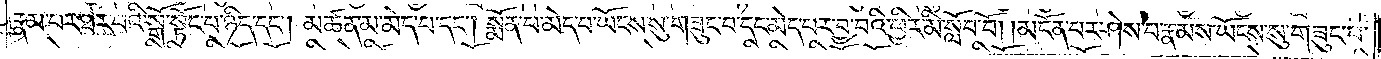རྣམ་པར་ཐར་པའི་སྒོ་སྟོང་པ་ཉིད་དང༌། མཚན་མ་མེད་པ་དང༌། སྨོན་པ་མེད་པ་ཡོངས་སུ་གཟུང་བ་དང་མེད་པར་བྱ་བའི་ཕྱིར་མི་སློབ་བོ། །མངོན་པར་ཤེས་པ་རྣམས་ཡོངས་སུ་གཟུང་བ་
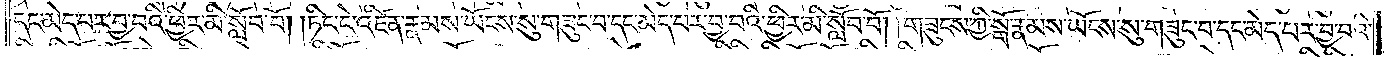དང་མེད་པར་བྱ་བའི་ཕྱིར་མི་སློབ་བོ། །ཏིང་ངེ་འཛིན་རྣམས་ཡོངས་སུ་གཟུང་བ་དང་མེད་པར་བྱ་བའི་ཕྱིར་མི་སློབ་བོ། ། གཟུངས་ཀྱི་སྒོ་རྣམས་ཡོངས་སུ་གཟུང་བ་དང་མེད་པར་བྱ་བའི་
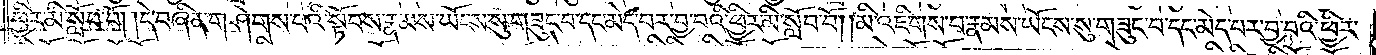ཕྱིར་མི་སློབ་བོ། །དེ་བཞིན་གཤེགས་པའི་སྟོབས་རྣམས་ཡོངས་སུ་གཟུང་བ་དང་མེད་པར་བྱ་བའི་ཕྱིར་མི་སློབ་བོ། །མི་འཇིགས་པ་རྣམས་ཡོངས་སུ་གཟུང་བ་དང་མེད་པར་བྱ་བའི་ཕྱིར་
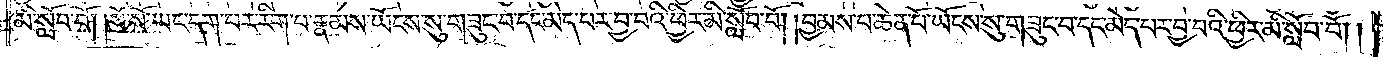མི་སློབ་བོ། །སོ་སོ་ཡང་དག་པར་རིག་པ་རྣམས་ཡོངས་སུ་གཟུང་བ་དང་མེད་པར་བྱ་བའི་ཕྱིར་མི་སློབ་བོ། །བྱམས་པ་ཆེན་པོ་ཡོངས་སུ་གཟུང་བ་དང་མེད་པར་བྱ་བའི་ཕྱིར་མི་སློབ་བོ། །
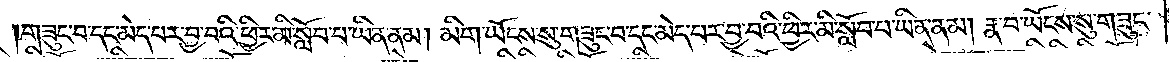གཟུང་བ་དང་མེད་པར་བྱ་བའི་ཕྱིར་མི་སློབ་པ་ཡིན་ནམ། མིག་ཡོངས་སུ་གཟུང་བ་དང་མེད་པར་བྱ་བའི་ཕྱིར་མི་སློབ་པ་ཡིན་ནམ། རྣ་བ་ཡོངས་སུ་གཟུང་
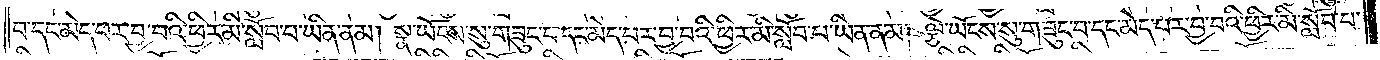བ་དང་མེད་པར་བྱ་བའི་ཕྱིར་མི་སློབ་པ་ཡིན་ནམ། སྣ་ཡོངས་སུ་གཟུང་བ་དང་མེད་པར་བྱ་བའི་ཕྱིར་མི་སློབ་པ་ཡིན་ནམ། ལྕེ་ཡོངས་སུ་གཟུང་བ་དང་མེད་པར་བྱ་བའི་ཕྱིར་མི་སློབ་པ་
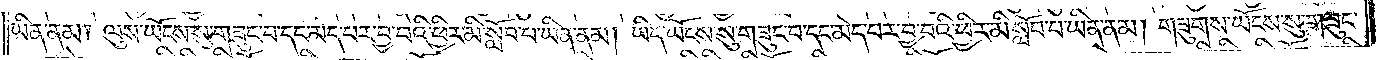ཡིན་ནམ། ལུས་ཡོངས་སུ་གཟུང་བ་དང་མེད་པར་བྱ་བའི་ཕྱིར་མི་སློབ་པ་ཡིན་ནམ། ཡིད་ཡོངས་སུ་གཟུང་བ་དང་མེད་པར་བྱ་བའི་ཕྱིར་མི་སློབ་པ་ཡིན་ནམ། གཟུགས་ཡོངས་སུ་གཟུང་
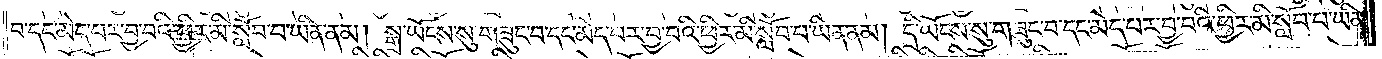བ་དང་མེད་པར་བྱ་བའི་ཕྱིར་མི་སློབ་པ་ཡིན་ནམ། སྒྲ་ཡོངས་སུ་གཟུང་བ་དང་མེད་པར་བྱ་བའི་ཕྱིར་མི་སློབ་པ་ཡིན་ནམ། དྲི་ཡོངས་སུ་གཟུང་བ་དང་མེད་པར་བྱ་བའི་ཕྱིར་མི་སློབ་པ་ཡིན་
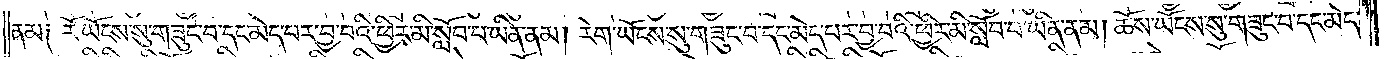ནམ༑ རོ་ཡོངས་སུ་གཟུང་བ་དང་མེད་པར་བྱ་བའི་ཕྱིར་མི་སློབ་པ་ཡིན་ནམ། རེག་ཡོངས་སུ་གཟུང་བ་དང་མེད་པར་བྱ་བའི་ཕྱིར་མི་སློབ་པ་ཡིན་ནམ། ཆོས་ཡོངས་སུ་གཟུང་བ་དང་མེད་
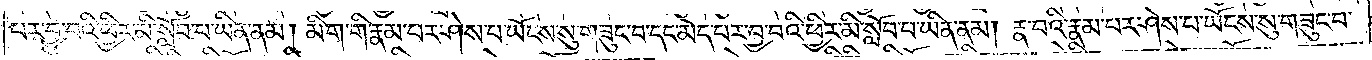པར་བྱ་བའི་ཕྱིར་མི་སློབ་པ་ཡིན་ནམ། མིག་གི་རྣམ་པར་ཤེས་པ་ཡོངས་སུ་གཟུང་བ་དང་མེད་པར་བྱ་བའི་ཕྱིར་མི་སློབ་པ་ཡིན་ནམ། རྣ་བའི་རྣམ་པར་ཤེས་པ་ཡོངས་སུ་གཟུང་བ་
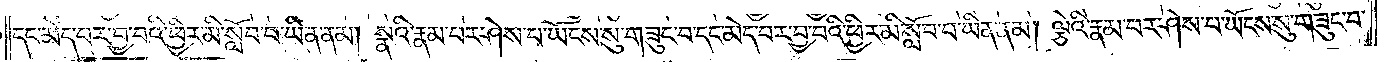དང་མེད་པར་བྱ་བའི་ཕྱིར་མི་སློབ་པ་ཡིན་ནམ། སྣའི་རྣམ་པར་ཤེས་པ་ཡོངས་སུ་གཟུང་བ་དང་མེད་པར་བྱ་བའི་ཕྱིར་མི་སློབ་པ་ཡིན་ནམ། ལྕེའི་རྣམ་པར་ཤེས་པ་ཡོངས་སུ་གཟུང་བ་
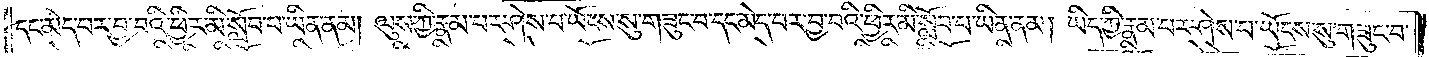དང་མེད་པར་བྱ་བའི་ཕྱིར་མི་སློབ་པ་ཡིན་ནམ། ལུས་ཀྱི་རྣམ་པར་ཤེས་པ་ཡོངས་སུ་གཟུང་བ་དང་མེད་པར་བྱ་བའི་ཕྱིར་མི་སློབ་པ་ཡིན་ནམ། ཡིད་ཀྱི་རྣམ་པར་ཤེས་པ་ཡོངས་སུ་གཟུང་བ་
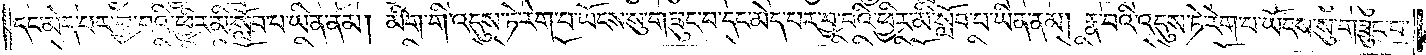དང་མེད་པར་བྱ་བའི་ཕྱིར་མི་སློབ་པ་ཡིན་ནམ། མིག་གི་འདུས་ཏེ་རེག་པ་ཡོངས་སུ་གཟུང་བ་དང་མེད་པར་བྱ་བའི་ཕྱིར་མི་སློབ་པ་ཡིན་ནམ། རྣ་བའི་འདུས་ཏེ་རེག་པ་ཡོངས་སུ་གཟུང་བ་
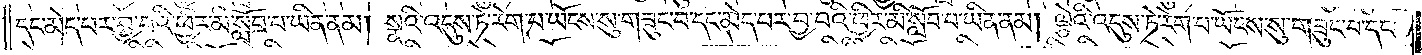དང་མེད་པར་བྱ་བའི་ཕྱིར་མི་སློབ་པ་ཡིན་ནམ། སྣའི་འདུས་ཏེ་རེག་པ་ཡོངས་སུ་གཟུང་བ་དང་མེད་པར་བྱ་བའི་ཕྱིར་མི་སློབ་པ་ཡིན་ནམ། ལྕེའི་འདུས་ཏེ་རེག་པ་ཡོངས་སུ་གཟུང་བ་དང་
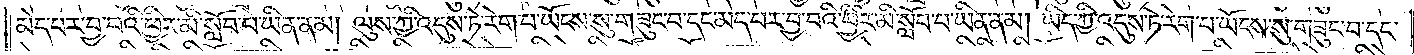མེད་པར་བྱ་བའི་ཕྱིར་མི་སློབ་པ་ཡིན་ནམ། ལུས་ཀྱི་འདུས་ཏེ་རེག་པ་ཡོངས་སུ་གཟུང་བ་དང་མེད་པར་བྱ་བའི་ཕྱིར་མི་སློབ་པ་ཡིན་ནམ། ཡིད་ཀྱི་འདུས་ཏེ་རེག་པ་ཡོངས་སུ་གཟུང་བ་དང་
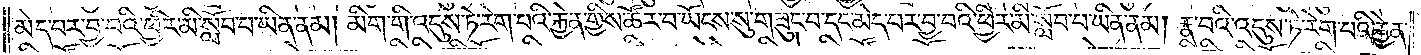མེད་པར་བྱ་བའི་ཕྱིར་མི་སློབ་པ་ཡིན་ནམ། མིག་གི་འདུས་ཏེ་རེག་པའི་རྐྱེན་གྱིས་ཚོར་བ་ཡོངས་སུ་གཟུང་བ་དང་མེད་པར་བྱ་བའི་ཕྱིར་མི་སློབ་པ་ཡིན་ནམ། རྣ་བའི་འདུས་ཏེ་རེག་པའི་རྐྱེན་
